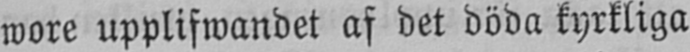wore upplifwandet af det döda kyrkliga
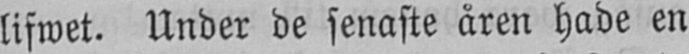lifwet. Under de senaste åren hade en
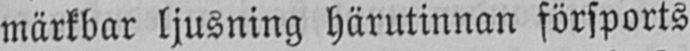märkbar ljusning härutinnan försports
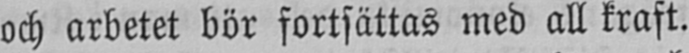och arbetet bör fortsättas med all kraft.
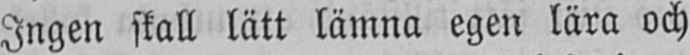Ingen skall lätt lämna egen lära och
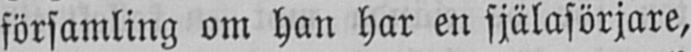församling om han har en själasörjare,
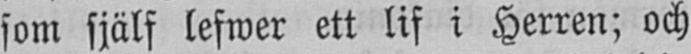som själf lefwer ett lif i Herren; och
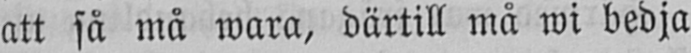att få må wara, därtill må wi bedja
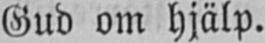Gud om hjälp.
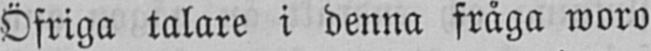Öfriga talare i denna fråga woro
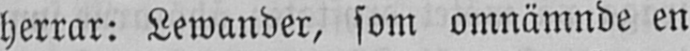herrar: Lewander, som omnämnde en
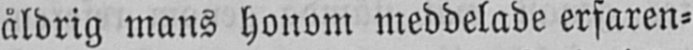åldrig mans honom meddelade erfaren-
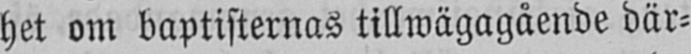het om baptisternas tillwägagående där-
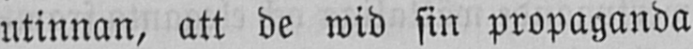utinnan, att de wid sin propaganda
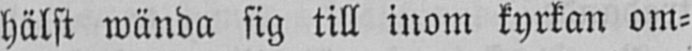hälft wända sig till inom kyrkan om-
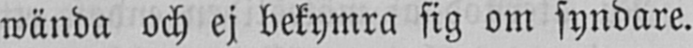wända och ej bekymra sig om syndare.
